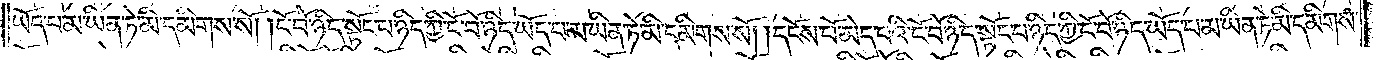ཡོད་པ་མ་ཡིན་ཏེ་མི་དམིགས་སོ། །ངོ་བོ་ཉིད་སྟོང་པ་ཉིད་ཀྱི་ངོ་བོ་ཉིད་ཡོད་པ་མ་ཡིན་ཏེ་མི་དམིགས་སོ། །དངོས་པོ་མེད་པའི་ངོ་བོ་ཉིད་སྟོང་པ་ཉིད་ཀྱི་ངོ་བོ་ཉིད་ཡོད་པ་མ་ཡིན་ཏེ་མི་དམིགས་
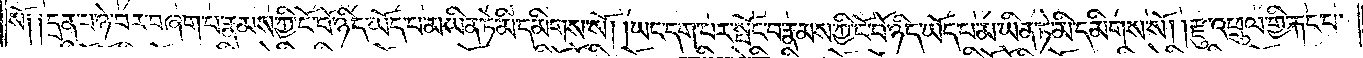སོ༑ ༑དྲན་པ་ཉེ་བར་བཞག་པ་རྣམས་ཀྱི་ངོ་བོ་ཉིད་ཡོད་པ་མ་ཡིན་ཏེ་མི་དམིགས་སོ། །ཡང་དག་པར་སྤོང་བ་རྣམས་ཀྱི་ངོ་བོ་ཉིད་ཡོད་པ་མ་ཡིན་ཏེ་མི་དམིགས་སོ། །རྫུ་འཕྲུལ་གྱི་རྐང་པ་
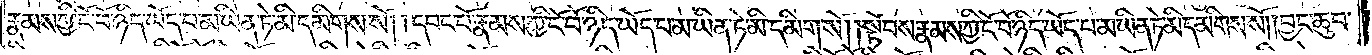རྣམས་ཀྱི་ངོ་བོ་ཉིད་ཡོད་པ་མ་ཡིན་ཏེ་མི་དམིགས་སོ། །དབང་པོ་རྣམས་ཀྱི་ངོ་བོ་ཉིད་ཡོད་པ་མ་ཡིན་ཏེ་མི་དམིགས་སོ། །སྟོབས་རྣམས་ཀྱི་ངོ་བོ་ཉིད་ཡོད་པ་མ་ཡིན་ཏེ་མི་དམིགས་སོ། །བྱང་ཆུབ་
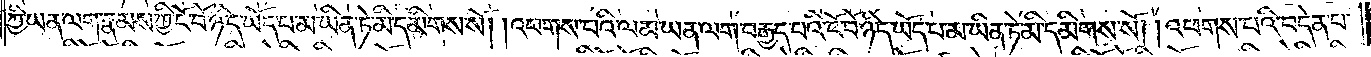ཀྱི་ཡན་ལག་རྣམས་ཀྱི་ངོ་བོ་ཉིད་ཡོད་པ་མ་ཡིན་ཏེ་མི་དམིགས་སོ། །འཕགས་པའི་ལམ་ཡན་ལག་བརྒྱད་པའི་ངོ་བོ་ཉིད་ཡོད་པ་མ་ཡིན་ཏེ་མི་དམིགས་སོ། །འཕགས་པའི་བདེན་པ་
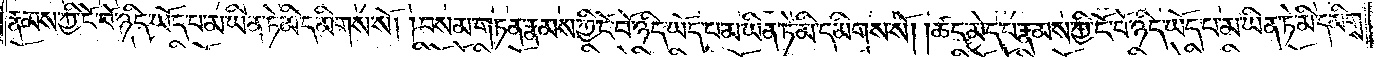རྣམས་ཀྱི་ངོ་བོ་ཉིད་ཡོད་པ་མ་ཡིན་ཏེ་མི་དམིགས་སོ། །བསམ་གཏན་རྣམས་ཀྱི་ངོ་བོ་ཉིད་ཡོད་པ་མ་ཡིན་ཏེ་མི་དམིགས་སོ། །ཚད་མེད་པ་རྣམས་ཀྱི་ངོ་བོ་ཉིད་ཡོད་པ་མ་ཡིན་ཏེ་མི་དམིགས་
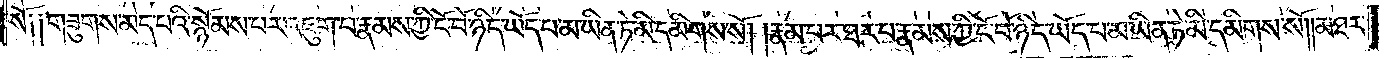སོ༑ ༑གཟུགས་མེད་པའི་སྙོམས་པར་འཇུག་པ་རྣམས་ཀྱི་ངོ་བོ་ཉིད་ཡོད་པ་མ་ཡིན་ཏེ་མི་དམིགས་སོ། །རྣམ་པར་ཐར་པ་རྣམས་ཀྱི་ངོ་བོ་ཉིད་ཡོད་པ་མ་ཡིན་ཏེ་མི་དམིགས་སོ། །མཐར་
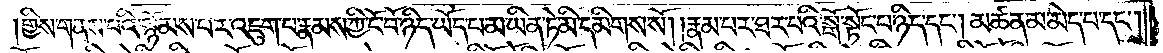གྱིས་གནས་པའི་སྙོམས་པར་འཇུག་པ་རྣམས་ཀྱི་ངོ་བོ་ཉིད་ཡོད་པ་མ་ཡིན་ཏེ་མི་དམིགས་སོ། །རྣམ་པར་ཐར་པའི་སྒོ་སྟོང་པ་ཉིད་དང༌། མཚན་མ་མེད་པ་དང༌།
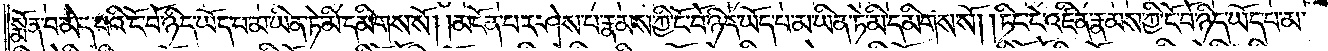སྨོན་པ་མེད་པའི་ངོ་བོ་ཉིད་ཡོད་པ་མ་ཡིན་ཏེ་མི་དམིགས་སོ། །མངོན་པར་ཤེས་པ་རྣམས་ཀྱི་ངོ་བོ་ཉིད་ཡོད་པ་མ་ཡིན་ཏེ་མི་དམིགས་སོ། །ཏིང་ངེ་འཛིན་རྣམས་ཀྱི་ངོ་བོ་ཉིད་ཡོད་པ་མ་
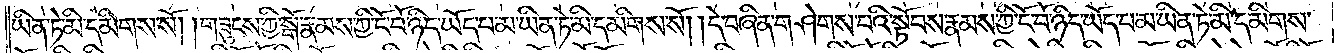ཡིན་ཏེ་མི་དམིགས་སོ། །གཟུངས་ཀྱི་སྒོ་རྣམས་ཀྱི་ངོ་བོ་ཉིད་ཡོད་པ་མ་ཡིན་ཏེ་མི་དམིགས་སོ། །དེ་བཞིན་གཤེགས་པའི་སྟོབས་རྣམས་ཀྱི་ངོ་བོ་ཉིད་ཡོད་པ་མ་ཡིན་ཏེ་མི་དམིགས་
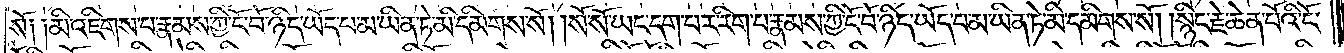སོ༑ ༑མི་འཇིགས་པ་རྣམས་ཀྱི་ངོ་བོ་ཉིད་ཡོད་པ་མ་ཡིན་ཏེ་མི་དམིགས་སོ། །སོ་སོ་ཡང་དག་པར་རིག་པ་རྣམས་ཀྱི་ངོ་བོ་ཉིད་ཡོད་པ་མ་ཡིན་ཏེ་མི་དམིགས་སོ། །སྙིང་རྗེ་ཆེན་པོའི་ངོ་
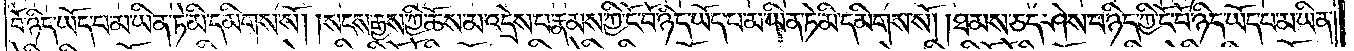བོ་ཉིད་ཡོད་པ་མ་ཡིན་ཏེ་མི་དམིགས་སོ། །སངས་རྒྱས་ཀྱི་ཆོས་མ་འདྲེས་པ་རྣམས་ཀྱི་ངོ་བོ་ཉིད་ཡོད་པ་མ་ཡིན་ཏེ་མི་དམིགས་སོ། །ཐམས་ཅད་ཤེས་པ་ཉིད་ཀྱི་ངོ་བོ་ཉིད་ཡོད་པ་མ་ཡིན་
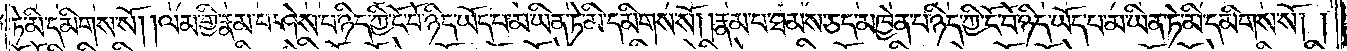ཏེ་མི་དམིགས་སོ། །ལམ་གྱི་རྣམ་པ་ཤེས་པ་ཉིད་ཀྱི་ངོ་བོ་ཉིད་ཡོད་པ་མ་ཡིན་ཏེ་མི་དམིགས་སོ། །རྣམ་པ་ཐམས་ཅད་མཁྱེན་པ་ཉིད་ཀྱི་ངོ་བོ་ཉིད་ཡོད་པ་མ་ཡིན་ཏེ་མི་དམིགས་སོ། །
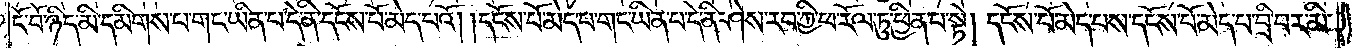ངོ་བོ་ཉིད་མི་དམིགས་པ་གང་ཡིན་པ་དེ་ནི་དངོས་པོ་མེད་པའོ། །དངོས་པོ་མེད་པ་གང་ཡིན་པ་དེ་ནི་ཤེས་རབ་ཀྱི་ཕ་རོལ་ཏུ་ཕྱིན་པ་སྟེ། དངོས་པོ་མེད་པས་དངོས་པོ་མེད་པ་བྲི་བར་མི་
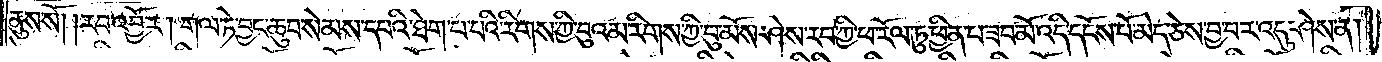ནུས་སོ། །རབ་འབྱོར། གལ་ཏེ་བྱང་ཆུབ་སེམས་དཔའི་ཐེག་པ་པའི་རིགས་ཀྱི་བུའམ་རིགས་ཀྱི་བུ་མོས་ཤེས་རབ་ཀྱི་ཕ་རོལ་ཏུ་ཕྱིན་པ་ཟབ་མོ་འདི་དངོས་པོ་མེད་ཅེས་བྱ་བར་འདུ་ཤེས་ན།
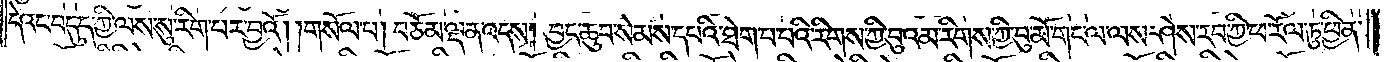དེའང་བདུད་ཀྱི་ལས་སུ་རིག་པར་བྱའོ། །གསོལ་པ། བཅོམ་ལྡན་འདས། བྱང་ཆུབ་སེམས་དཔའི་ཐེག་པ་པའི་རིགས་ཀྱི་བུའམ་རིགས་ཀྱི་བུ་མོ་གང་ལ་ལས་ཤེས་རབ་ཀྱི་ཕ་རོལ་ཏུ་ཕྱིན་
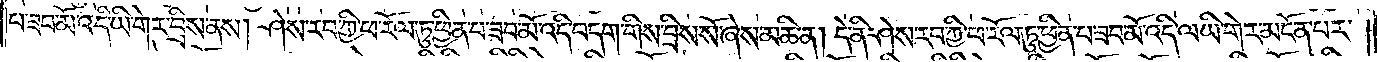པ་ཟབ་མོ་འདི་ཡི་གེར་བྲིས་ནས། ཤེས་རབ་ཀྱི་ཕ་རོལ་ཏུ་ཕྱིན་པ་ཟབ་མོ་འདི་བདག་གིས་བྲིས་སོ་ཞེས་མཆི་ན། དེ་ནི་ཤེས་རབ་ཀྱི་ཕ་རོལ་ཏུ་ཕྱིན་པ་ཟབ་མོ་འདི་ལ་ཡི་གེར་མངོན་པར་
